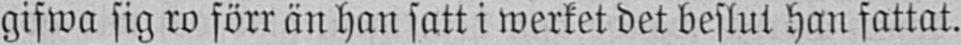gifwa sig ro förr än han satt i werket det beslut han fattat.
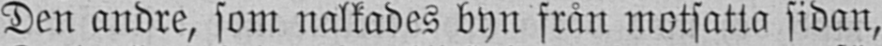Den andre, som nalkades byn från motsatta sidan,
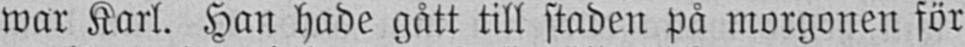war Karl. Han hade gått till staden på morgonen för
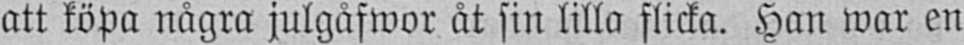att köpa några julgåfwor åt sin lilla flicka. Han war en
